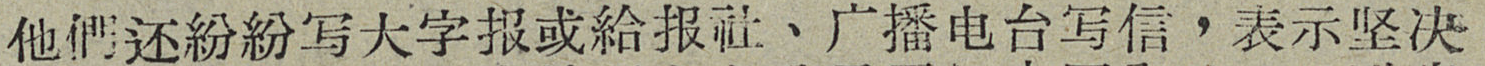他們还紛紛写大字报或給报社、广播电台写信，表示坚决
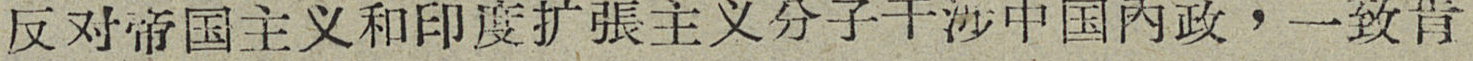反对帝国主义和印度扩張主义分子干涉中国内政，一致肯
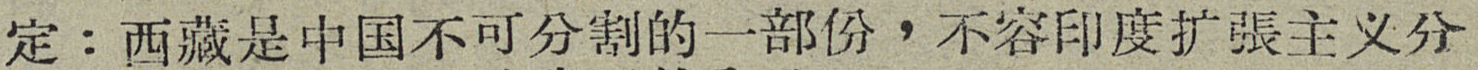定：西藏是中国不可分割的一部分，不容印度扩張主义分
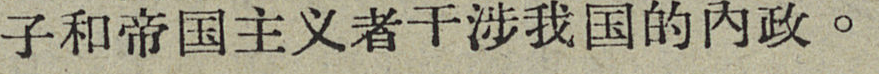子和帝国主义者干涉我国的内政。
